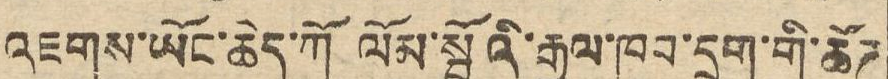འཇགས་ཡོང་ཆེད་ཀོ ལོམ་སྤོའི་རྒྱལ་ཁྱབ་དྲུག་གི་ཚོཊ
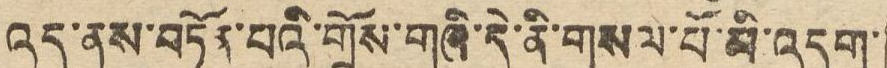འདུ་ནས་བཏོན་པའི་གྲོས་གཞི་དེ་ནི་གསལ་པོ་མི་འདུག་
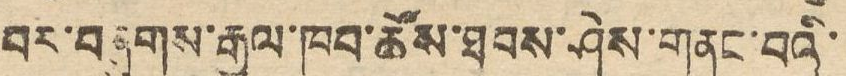བར་བཞུགས་རྒྱལ་ཁབ་ཚོས་ཐབས་ཤེས་གནང་བའི་
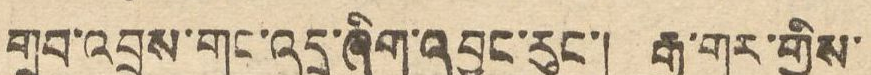གྲུབ་འབྲས་གང་འདྲ་ཞིག་འབྱུང་རུང་། རྒྱ་གར་གྱིས་
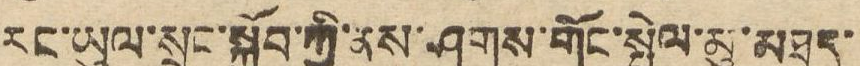རང་ཡུལ་སྲུང་སྐྱོབ་ཀྱི་ནུས་ཤུགས་གོང་སྤེལ་མུ་མཐུད་
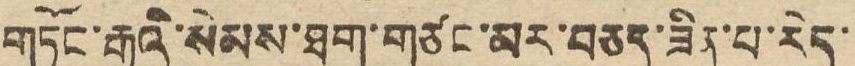གཏོང་རྒྱུའི་སེམས་ཐག་གཙང་མར་བཅད་ཟིན་པ་རེད་
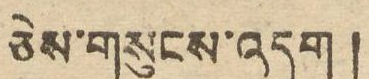ཅེས་གསུངས་འདུག །
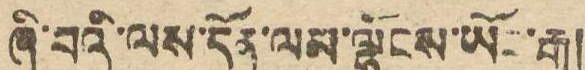ཞི་བའི་ལས་དོན་ལམ་ལྷོངས་ཡོང་རྒྱུ།
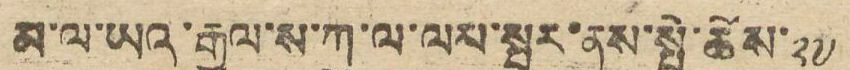མ་ལ་ཡའ་རྒྱལ་ས་ཀུ་ལ་ལས་སྤུར་ནས་སྤྱི་ཚེས་ ༢༧
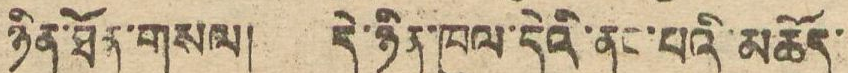ཉིན་ཐོག་གསལ། དེ་ཉིན་ཁུལ་དེའི་ནང་པའི་མཆོད་
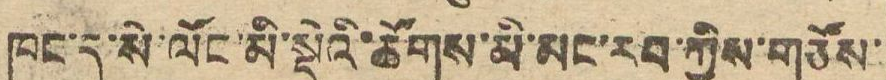ཁང་དུ་སེ་ལོང་མི་སྡེའི་ཚོགས་མི་མང་རབ་ཀྱིས་གཙོས་
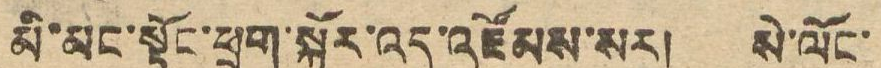མི་མང་སྟོང་ཕྲག་སྐོར་འདུ་འཛོམས་སར། སེ་ལོང་
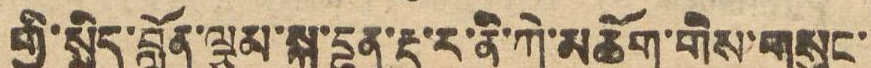གྱི་སྲིད་བློན་ལྕམ་སྐུ་བྷན་རྡ་ར་ནི་ཀེ་མཆོག་གིས་གསུང་
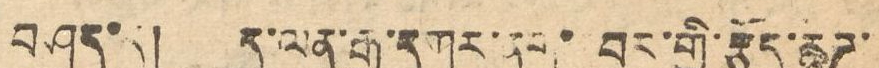བཤད་དུ། ད་ལན་རྒྱ་དཀར་ནག་ བར་གྱི་རྩོད་རྙོཊ་
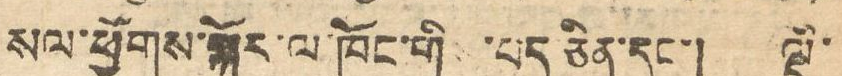སལ་ཕྱོགས་སྐོར་ལ་ཁོང་གིས་པད་ཅིན་དང་། ལྡི་
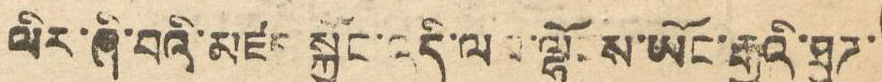ལིར་ཞི་བའི་མཛད་སྐྱོང་འདི་ལམ་ལྷོངས་ཡོང་རྒྱུའི་ཐུཊ་
